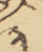༣
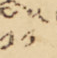༡༡
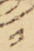༡
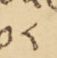༡༨
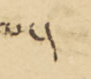ལ་།
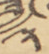༣
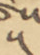༥
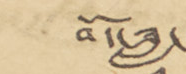བོད་ཟླ་
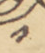༡
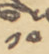༡༠
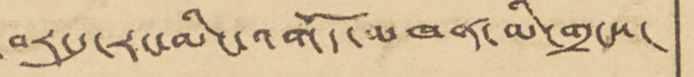བར་དུ་རང་མིང་འགོད་མཁན་མི་གྲངས་
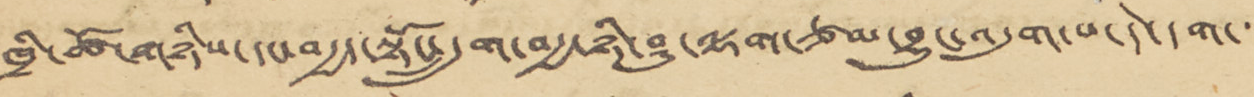ཁྲི་ཚོ་གཉིས་དང་བརྒྱད་སྟོང་དྲུག་བརྒྱ་ཉི་ཤུ་ལྷག་ཙམ་བྱུང་འདུག་པ་དེ་དག་་་
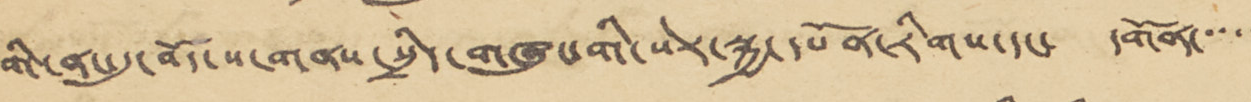གི་ནང་དུ་གནས་སྲིད་གཞུང་གི་སེར་སྐྱ་དཔོན་རིགས་དང་ དགོན་་་་་
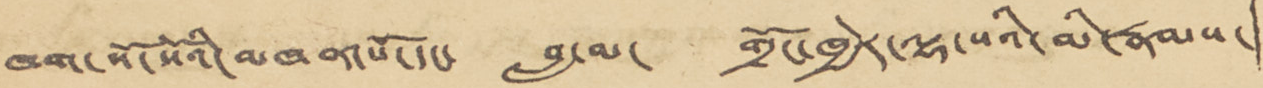ཁག་སོ་སོའི་མཁན་པོ་དང་ བླ་མ་ གྲོང་ཁྱེར་ལྷ་སའི་མི་རྣམས་།
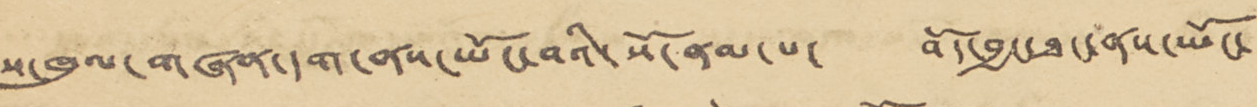ས་ཁུལ་གཞན་དག་ནས་ཡོང་བའི་སོ་ནམ་པ་ བོད་བྱང་ཐང་ནས་ཡོང་
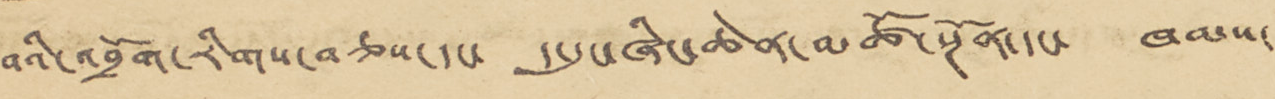བའི་འབྲོག་རིགས་བཅས་དང་ ད་དུང་ཞིང་ཆེན་མཚོ་སྔོན་དང་ ཁམས་
